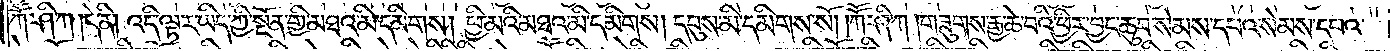ཀཽ་ཤི་ཀ །དེ་ནི། འདི་ལྟར་ཡིད་ཀྱི་སྔོན་གྱི་མཐའ་མི་དམིགས། ཕྱི་མའི་མཐའ་མི་དམིགས། དབུས་མི་དམིགས་སོ། །ཀཽ་ཤི་ཀ །གཟུགས་རྒྱ་ཆེ་བའི་ཕྱིར་བྱང་ཆུབ་སེམས་དཔའ་སེམས་དཔའ་
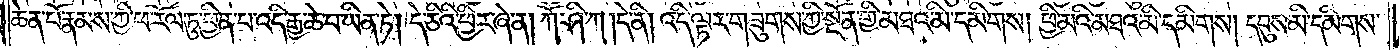ཆེན་པོ་རྣམས་ཀྱི་ཕ་རོལ་ཏུ་ཕྱིན་པ་འདི་རྒྱ་ཆེ་བ་ཡིན་ཏེ། དེ་ཅིའི་ཕྱིར་ཞེ་ན། ཀཽ་ཤི་ཀ །དེ་ནི། འདི་ལྟར་གཟུགས་ཀྱི་སྔོན་གྱི་མཐའ་མི་དམིགས། ཕྱི་མའི་མཐའ་མི་དམིགས། དབུས་མི་དམིགས་
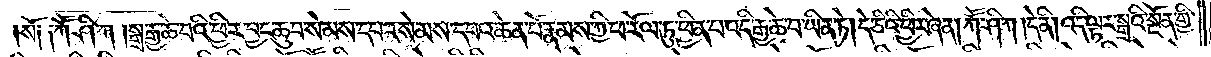སོ། །ཀཽ་ཤི་ཀ །སྒྲ་རྒྱ་ཆེ་བའི་ཕྱིར་བྱང་ཆུབ་སེམས་དཔའ་སེམས་དཔའ་ཆེན་པོ་རྣམས་ཀྱི་ཕ་རོལ་ཏུ་ཕྱིན་པ་འདི་རྒྱ་ཆེ་བ་ཡིན་ཏེ། དེ་ཅིའི་ཕྱིར་ཞེ་ན། ཀཽ་ཤི་ཀ །དེ་ནི། འདི་ལྟར་སྒྲའི་སྔོན་གྱི་
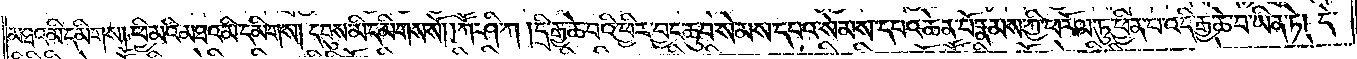མཐའ་མི་དམིགས། ཕྱི་མའི་མཐའ་མི་དམིགས། དབུས་མི་དམིགས་སོ། །ཀཽ་ཤི་ཀ །དྲི་རྒྱ་ཆེ་བའི་ཕྱིར་བྱང་ཆུབ་སེམས་དཔའ་སེམས་དཔའ་ཆེན་པོ་རྣམས་ཀྱི་ཕ་རོལ་ཏུ་ཕྱིན་པ་འདི་རྒྱ་ཆེ་བ་ཡིན་ཏེ། དེ་
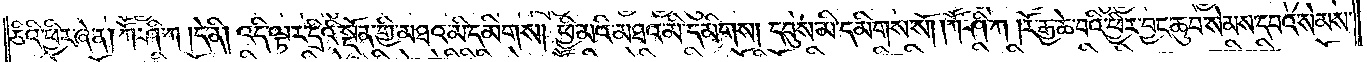ཅིའི་ཕྱིར་ཞེ་ན། ཀཽ་ཤི་ཀ །དེ་ནི། འདི་ལྟར་དྲིའི་སྔོན་གྱི་མཐའ་མི་དམིགས། ཕྱི་མའི་མཐའ་མི་དམིགས། དབུས་མི་དམིགས་སོ། །ཀཽ་ཤི་ཀ །རོ་རྒྱ་ཆེ་བའི་ཕྱིར་བྱང་ཆུབ་སེམས་དཔའ་སེམས་
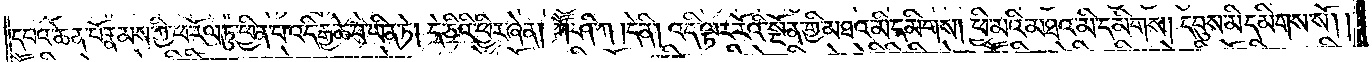དཔའ་ཆེན་པོ་རྣམས་ཀྱི་ཕ་རོལ་ཏུ་ཕྱིན་པ་འདི་རྒྱ་ཆེ་བ་ཡིན་ཏེ། དེ་ཅིའི་ཕྱིར་ཞེ་ན། ཀཽ་ཤི་ཀ །དེ་ནི། འདི་ལྟར་རོའི་སྔོན་གྱི་མཐའ་མི་དམིགས། ཕྱི་མའི་མཐའ་མི་དམིགས། དབུས་མི་དམིགས་སོ། །
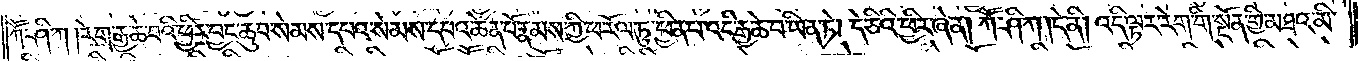ཀཽ་ཤི་ཀ །རེག་རྒྱ་ཆེ་བའི་ཕྱིར་བྱང་ཆུབ་སེམས་དཔའ་སེམས་དཔའ་ཆེན་པོ་རྣམས་ཀྱི་ཕ་རོལ་ཏུ་ཕྱིན་པ་འདི་རྒྱ་ཆེ་བ་ཡིན་ཏེ། དེ་ཅིའི་ཕྱིར་ཞེ་ན། ཀཽ་ཤི་ཀ །དེ་ནི། འདི་ལྟར་རེག་གི་སྔོན་གྱི་མཐའ་མི་
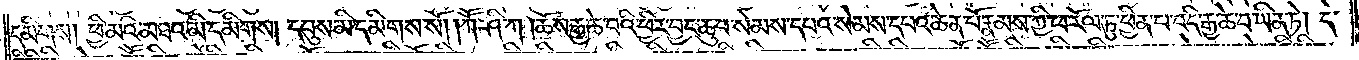དམིགས། ཕྱི་མའི་མཐའ་མི་དམིགས། དབུས་མི་དམིགས་སོ། །ཀཽ་ཤི་ཀ །ཆོས་རྒྱ་ཆེ་བའི་ཕྱིར་བྱང་ཆུབ་སེམས་དཔའ་སེམས་དཔའ་ཆེན་པོ་རྣམས་ཀྱི་ཕ་རོལ་ཏུ་ཕྱིན་པ་འདི་རྒྱ་ཆེ་བ་ཡིན་ཏེ། དེ་
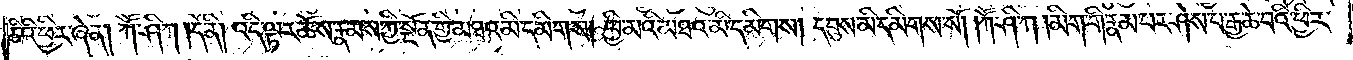ཅིའི་ཕྱིར་ཞེ་ན། ཀཽ་ཤི་ཀ །དེ་ནི། འདི་ལྟར་ཆོས་རྣམས་ཀྱི་སྔོན་གྱི་མཐའ་མི་དམིགས། ཕྱི་མའི་མཐའ་མི་དམིགས། དབུས་མི་དམིགས་སོ། །ཀཽ་ཤི་ཀ །མིག་གི་རྣམ་པར་ཤེས་པ་རྒྱ་ཆེ་བའི་ཕྱིར་
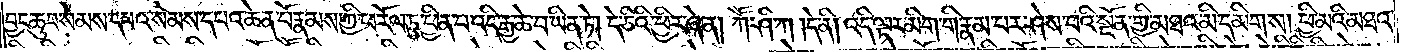བྱང་ཆུབ་སེམས་དཔའ་སེམས་དཔའ་ཆེན་པོ་རྣམས་ཀྱི་ཕ་རོལ་ཏུ་ཕྱིན་པ་འདི་རྒྱ་ཆེ་བ་ཡིན་ཏེ། དེ་ཅིའི་ཕྱིར་ཞེ་ན། ཀཽ་ཤི་ཀ །དེ་ནི། འདི་ལྟར་མིག་གི་རྣམ་པར་ཤེས་པའི་སྔོན་གྱི་མཐའ་མི་དམིགས། ཕྱི་མའི་མཐའ་
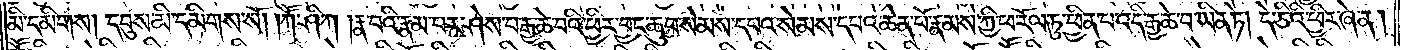མི་དམིགས། དབུས་མི་དམིགས་སོ། །ཀཽ་ཤི་ཀ །རྣ་བའི་རྣམ་པར་ཤེས་པ་རྒྱ་ཆེ་བའི་ཕྱིར་བྱང་ཆུབ་སེམས་དཔའ་སེམས་དཔའ་ཆེན་པོ་རྣམས་ཀྱི་ཕ་རོལ་ཏུ་ཕྱིན་པ་འདི་རྒྱ་ཆེ་བ་ཡིན་ཏེ། དེ་ཅིའི་ཕྱིར་ཞེ་ན།
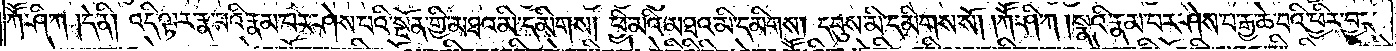ཀཽ་ཤི་ཀ །དེ་ནི། འདི་ལྟར་རྣ་བའི་རྣམ་པར་ཤེས་པའི་སྔོན་གྱི་མཐའ་མི་དམིགས། ཕྱི་མའི་མཐའ་མི་དམིགས། དབུས་མི་དམིགས་སོ། །ཀཽ་ཤི་ཀ །སྣའི་རྣམ་པར་ཤེས་པ་རྒྱ་ཆེ་བའི་ཕྱིར་བྱང་
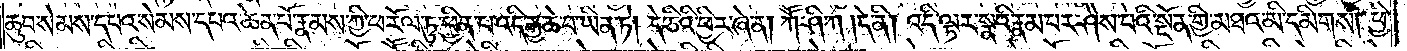ཆུབ་སེམས་དཔའ་སེམས་དཔའ་ཆེན་པོ་རྣམས་ཀྱི་ཕ་རོལ་ཏུ་ཕྱིན་པ་འདི་རྒྱ་ཆེ་བ་ཡིན་ཏེ། དེ་ཅིའི་ཕྱིར་ཞེ་ན། ཀཽ་ཤི་ཀ །དེ་ནི། འདི་ལྟར་སྣའི་རྣམ་པར་ཤེས་པའི་སྔོན་གྱི་མཐའ་མི་དམིགས། ཕྱི་
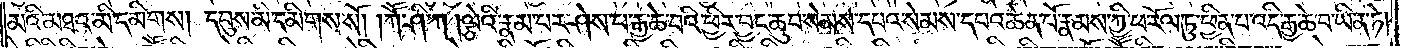མའི་མཐའ་མི་དམིགས། དབུས་མི་དམིགས་སོ། །ཀཽ་ཤི་ཀ །ལྕེའི་རྣམ་པར་ཤེས་པ་རྒྱ་ཆེ་བའི་ཕྱིར་བྱང་ཆུབ་སེམས་དཔའ་སེམས་དཔའ་ཆེན་པོ་རྣམས་ཀྱི་ཕ་རོལ་ཏུ་ཕྱིན་པ་འདི་རྒྱ་ཆེ་བ་ཡིན་ཏེ།
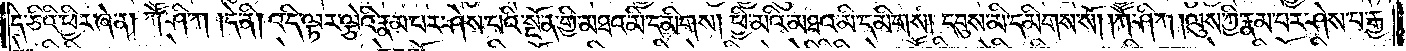དེ་ཅིའི་ཕྱིར་ཞེ་ན། ཀཽ་ཤི་ཀ །དེ་ནི། འདི་ལྟར་ལྕེའི་རྣམ་པར་ཤེས་པའི་སྔོན་གྱི་མཐའ་མི་དམིགས། ཕྱི་མའི་མཐའ་མི་དམིགས། དབུས་མི་དམིགས་སོ། །ཀཽ་ཤི་ཀ །ལུས་ཀྱི་རྣམ་པར་ཤེས་པ་རྒྱ་
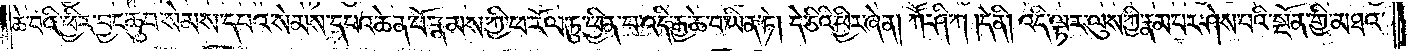ཆེ་བའི་ཕྱིར་བྱང་ཆུབ་སེམས་དཔའ་སེམས་དཔའ་ཆེན་པོ་རྣམས་ཀྱི་ཕ་རོལ་ཏུ་ཕྱིན་པ་འདི་རྒྱ་ཆེ་བ་ཡིན་ཏེ། དེ་ཅིའི་ཕྱིར་ཞེ་ན། ཀཽ་ཤི་ཀ །དེ་ནི། འདི་ལྟར་ལུས་ཀྱི་རྣམ་པར་ཤེས་པའི་སྔོན་གྱི་མཐའ་
